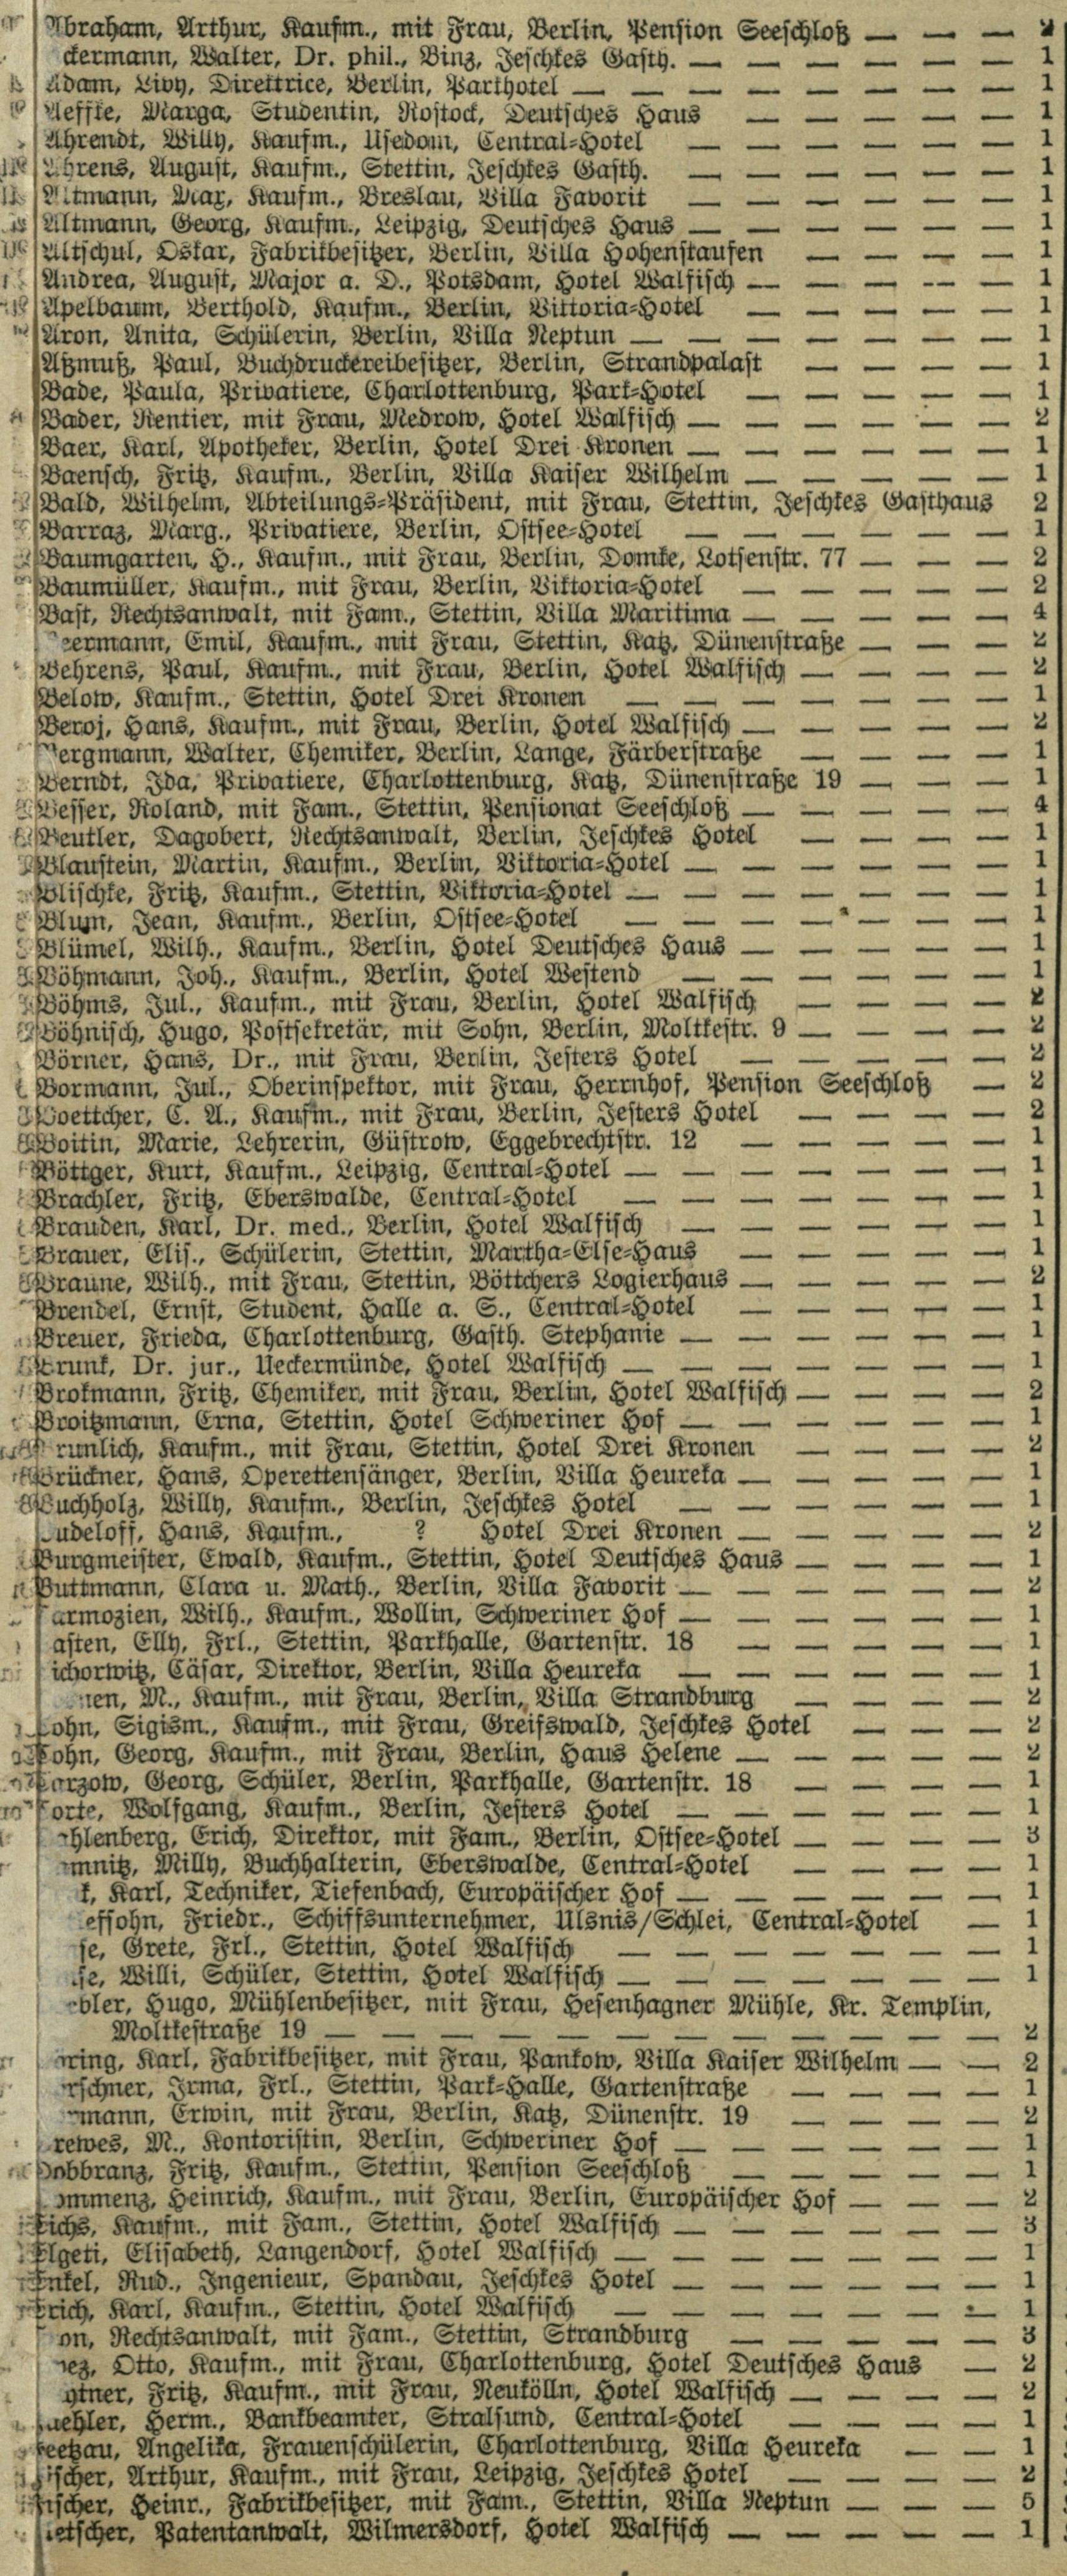Abraham, Arthur, Kaufm., mit Frau, Berlin, Pension Seeschloß | 2
Ackermann, Walter, Dr. phil., Binz, Jeschkes Gasth. | 1
Adam, Livy, Direktrice, Berlin, Parkhotel | 1
Aeffke, Marga, Studentin, Rostock, Deutsches Haus | 1
Ahrendt, Willy, Kaufm., Usedom, Central=Hotel | 1
Ahrens, August, Kaufm., Stettin, Jeschkes Gasth. | 1
Altmann, Max, Kaufm., Breslau, Villa Favorit | 1
Altmann, Georg, Kaufm., Leipzig, Deutsches Haus | 1
Altschul, Oskar, Fabrikbesitzer, Berlin, Villa Hohenstaufen | 1
Andrea, August, Major a. D., Potsdam, Hotel Walfisch | 1
Apelbaum, Berthold, Kaufm., Berlin, Viktoria=Hotel | 1
Aron, Anita, Schülerin, Berlin, Villa Neptun | 1
Aßumß, Paul, Buchdruckereibesitzer, Berlin, Strandpalast | 1
Bade, Paula, Privatiere, Charlottenburg, Park=Hotel | 1
Bader, Rentier, mit Frau, Medrow, Hotel Walfisch | 2
Baer, Karl, Apotheker, Berlin, Hotel Drei Kronen | 1
Baensch, Fritz, Kaufm., Berlin, Villa Kaiser Wilhelm | 1
Bald, Wilhelm, Abteilungs=Präsident, mit Frau, Stettin, Jeschkes Gasthaus | 2
Barraz, Marg., Privatiere, Berlin, Ostsee=Hotel | 1
Baumgarten, H., Kaufm., mit Frau, Berlin, Domke, Lotsenstr. 77 | 2
Baumüller, Kaufm., mit Frau, Berlin, Viktoria=Hotel | 2
Bast, Rechtsanwalt, mit Fam., Stettin, Villa Maritima | 4
Beermann, Emil, Kaufm., mit Frau, Stettin, Katz, Dünenstraße | 2
Behrens, Paul, Kaufm., mit Frau, Berlin, Hotel Walfisch | 2
Below, Kaufm., Stettin, Hotel Drei Kronen | 1
Beroj, Hans, Kaufm., mit Frau, Berlin, Hotel Walfisch | 2
Bergmann, Walter, Chemiker, Berlin, Lange, Färberstraße | 1
Berndt, Ida, Privatiere, Charlottenburg, Katz, Dünestraße 19 | 1
Besser, Roland, mit Fam., Stettin, Pensionat Seeschloß | 4
Beutler, Dagobert, Rechtsanwalt, Berlin, Jeschkes Hotel | 1
Blaustein, Martin, Kaufm., Berlin, Viktoria=Hotel | 1
Blischke, Fritz, Kaufm., Stettin, Viktoria=Hotel | 1
Blum, Jean, Kaufm., Berlin, Ostsee=Hotel | 1
Blümel, Wilh., Kaufm., Berlin, Hotel Deutsches Haus | 1
Böhmann, Joh., Kaufm., Berlin, Hotel Westend | 1
Böhms, Jul., Kaufm., mit Frau, Berlin, Hotel Walfisch | 2
Böhnisch, Hugo, Postsekretär, mit Sohn, Berlin, Moltkestr. 9 | 2
Börner, Hans, Dr., mit Frau, Berlin, Jesters Hotel | 2
Bormann, Jul., Oberinspektor, mit Frau, Herrnhof, Pension Seeschloß | 2
Boettcher, C. A., Kaufm., mit Frau, Berlin, Jesters Hotel | 2
Boitin, Marie, Lehrerin, Güstrow, Eggebrechtstr. 12 | 1
Böttger, Kurt, Kaufm., Leipzig, Central=Hotel | 1
Brachler, Fritz, Eberswalde, Central=Hotel | 1
Brauden, Karl, Dr. med., Berlin, Hotel Walfisch | 1
Brauer, Elis., Schülerin, Stettin, Martha=Else=Haus | 1
Braune, Wilh., mit Frau, Stettin, Böttchers Logierhaus | 2
Brendel, Ernst, Student, Halle a. S., Central=Hotel | 1
Breuer, Frieda, Charlottenburg, Gasth. Stephanie | 1
Brunk, Dr. jur., Ueckermünde, Hotel Walfisch | 1
Brokmann, Fritz, Chemiker, mit Frau, Berlin, Hotel Walfisch | 2
Broitzmann, Erna, Stettin, Hotel Schweriner Hof | 1
Brunlich, Kaufm., mit Frau, Stettin, Hotel Drei Kronen | 2
Brückner, Hans, Operettenfänger, Berlin, Villa Heureka | 1
Buchholz, Willy, Kaufm., Berlin, Jeschkes Hotel | 1
Budeloff, Hans, Kaufm., ? Hotel Drei Kronnen | 2
Burgmeister, Ewald, Kaufm., Stettin, Hotel Deutsches Haus | 1
Buttmann, Clara u. Math., Berlin, Villa Favorit | 2
armozien, Wilh., Kaufm., Wollin, Schweriner Hof | 1
asten, Elly, Frl., Stettin, Parkhalle, Gartenstr. 18 | 1
ichorwitz, Cäsar, Direktor, Berlin, Villa Heureka | 1
nen, M., Kaufm., mit Frau, Berlin, Villa Strandburg | 2
Cohn, Sigism., Kaufm., mit Frau, Greifswald, Jeschkes Hotel | 2
Cohn, Georg, Kaufm., mit Frau, Berlin, Haus Helene | 2
Carzow, Georg, Schüler, Berlin, Parkhalle, Gartenstr. 18 | 1
Corte, Wolfgang, Kaufm., Berlin, Jesters Hotel | 1
ahlenberg, Erich, Direktor, mit Fam., Berlin, Ostsee=Hotel | 3
amnitz, Willy, Buchhalterin, Eberswalde, Central=Hotel | 1
ak, Karl, Techniker, Tiefenbach, Europäischer Hof | 1
efsohn, Friedr., Schiffsunternehmer, Ulsnis/Schlei, Central=Hotel | 1
nse, Grete, Frl., Stettin, Hotel Walfisch | 1
nse, Willi, Schüler, Stettin, Hotel Walfisch | 1
ebler, Hugo, Mühlenbesitzer, mit Frau, Hesenhagner Mühle, Kr. Templin, Moltkestraße 19 | 2
öring, Karl, Fabrikbesitzer, mit Frau, Pankow, Villa Kaiser Wilhelm | 2
örschmer, Irma, Frl., Stettin, Park=Hallte, Gartenstraße | 1
rmann, Erwin, mit Frau, Berlin, Katz, Dünenstr. 19 | 2
rewes, M., Kontoristin, Berlin, Schweriner Hof | 1
Dobbranz, Fritz, Kaufm., Stettin, Pension Seeschloß | 1
ommenz, Heinrich, Kaufm., mit Frau, Berlin, Europäischer Hof | 2
Eichs, Kaufm., mit Fam., Stettin, Hotel Walfisch | 3
Elgeti, Elisabeth, Langendorf, Hotel Walfisch | 1
Enkel, Rud., Ingenieur, Spandau, Jeschkes Hotel | 1
Erich, Karl, Kaufm., Stettin, Hotel Walfisch | 1
on, Rechtsanwalt, mit Fam., Stettin, Strandburg | 3
ez, Otto, Kaufm., mit Frau, Charlottenburg, Hotel Deutsches Haus | 2
htner, Fritz, Kaufm., mit Frau, Neukölln, Hotel Walfisch | 2
aehler, Herm., Bankbeamter, Stralsund, Central=Hotel | 1
Feetzau, Angelika, Frauenschülerin, Charlottenburg, Villa Heureka | 1
Fischer, Arthur, Kaufm., mit Frau, Leipzig, Jeschkes Hotel | 2
Fischer, Heinr., Fabrikbesitzer, mit Fam., Stettin, Villa Neptun | 5
letscher, Patentanwalt, Wilmersdorf, Hotel Walfisch | 1
